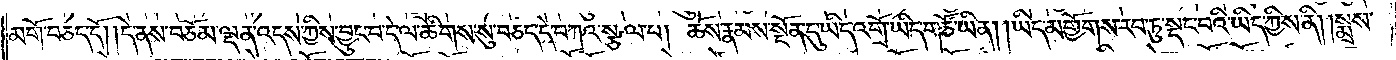མགོ་བཅད་དོ། །དེ་ནས་བཅོམ་ལྡན་འདས་ཀྱིས་བྱུང་བ་དེ་ལ་ཚིགས་སུ་བཅད་དེ་བཀའ་སྩལ་པ། ཆོས་རྣམས་སྔོན་དུ་ཡིད་འགྲོ་ཡིད་གཙོ་ཡིན། །ཡིད་མགྱོགས་རབ་ཏུ་སྡང་བའི་ཡིད་ཀྱིས་ནི། །སྨྲས་
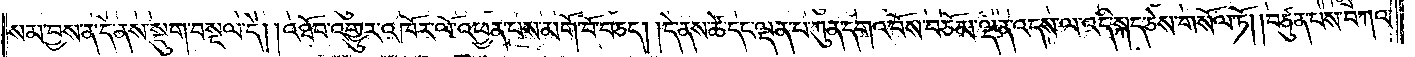སམ་བྱས་ན་དེ་ནས་སྡུག་བསྔལ་དེ། །འཐོབ་འགྱུར་འཁོར་ལོ་འཕྱན་པས་མགོ་བོ་བཅད། །དེ་ནས་ཚེ་དང་ལྡན་པ་ཀུན་དགའ་བོས་བཅོམ་ལྡན་འདས་ལ་འདི་སྐད་ཅེས་གསོལ་ཏོ། །བཙུན་པས་བཀའ་
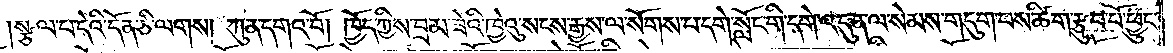།སྩལ་པ་དེའི་དོན་ཅི་ལགས། ཀུན་དགའ་བོ། ཁྱོད་ཀྱིས་བྲམ་ཟེའི་ཁྱེའུ་སངས་རྒྱས་ལ་སོགས་པ་དགེ་སློང་གི་དགེ་འདུན་ལ་སེམས་གདུག་པས་ཚིག་རྩུབ་པོ་ཕྱུང་
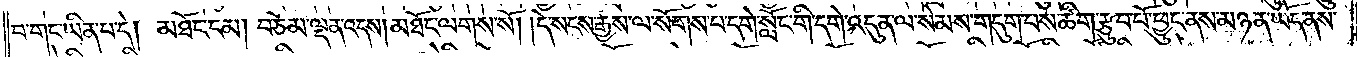བ་གང་ཡིན་པ་དེ། མཐོང་ངམ། བཅོམ་ལྡན་འདས། མཐོང་ལགས་སོ། །དེ་སངས་རྒྱས་ལ་སོགས་པ་དགེ་སློང་གི་དགེ་འདུན་ལ་སེམས་གདུག་པས་ཚིག་རྩུབ་པོ་ཕྱུང་ནས་མཉན་ཡོད་ནས་
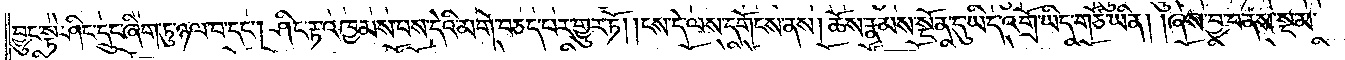བྱུང་སྟེ་ཤིང་དྲུང་ཞིག་ཏུ་ཉལ་བ་དང༌། ཤིང་རྟ་འཁྱམས་པས་དེའི་མགོ་བཅད་པར་གྱུར་ཏོ། །ངས་དེ་ལས་དགོངས་ནས། ཆོས་རྣམས་སྔོན་དུ་ཡིད་འགྲོ་ཡིད་གཙོ་ཡིན། །ཞེས་བྱ་བ་ནས་སྔ་མ་
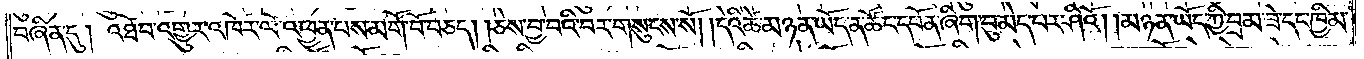བཞིན་དུ། འཐོབ་འགྱུར་འཁོར་ལོ་འཕྱན་པས་མགོ་བོ་བཅད། །ཅེས་བྱ་བའི་བར་གསུངས་སོ། །དེའི་ཚེ་མཉན་ཡོད་ན་ཚོང་དཔོན་ཞིག་བུ་མེད་པར་ཤིའོ། །མཉན་ཡོད་ཀྱི་བྲམ་ཟེ་དང་ཁྱིམ་
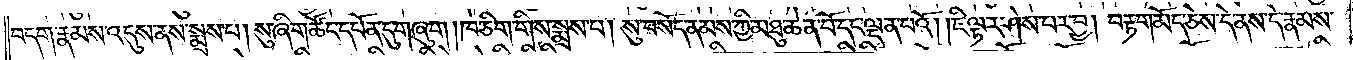བདག་རྣམས་འདུས་ནས་སྨྲས་པ། སུ་ཞིག་ཚོང་དཔོན་དུ་གཞུག །ཁ་ཅིག་གིས་སྨྲས་པ། སུ་བསོད་ནམས་ཀྱི་མཐུ་ཆེན་པོ་དང་ལྡན་པའོ། །ཇི་ལྟར་ཤེས་པར་བྱ། བརྟག་མོད་ཅེས་དེ་ནས་དེ་རྣམས་
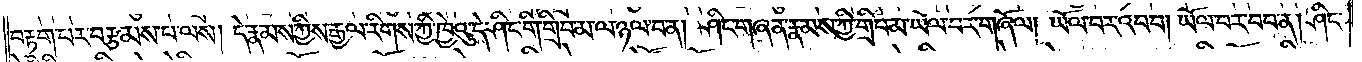བརྟག་པར་བརྩམས་པ་ལས། དེ་རྣམས་ཀྱིས་རྒྱལ་རིགས་ཀྱི་ཁྱེའུ་དེ་ཤིང་གི་གྲིབ་མ་ལ་ཉལ་བ་ན། ཤིང་གཞན་རྣམས་ཀྱི་གྲིབ་མ་ཡོལ་བར་གཞོལ། ཡོལ་བར་འབབ། ཡོལ་བར་བབ་ན། ཤིང་
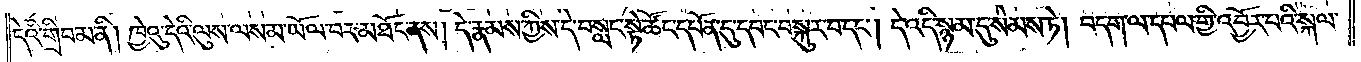དེའི་གྲིབ་མ་ནི། ཁྱེའུ་དེའི་ལུས་ལས་མ་ཡོལ་བར་མཐོང་ནས། དེ་རྣམས་ཀྱིས་དེ་བསླང་སྟེ་ཚོང་དཔོན་དུ་དབང་བསྐུར་བ་དང༌། དེ་འདི་སྙམ་དུ་སེམས་ཏེ། བདག་ལ་དཔལ་གྱི་འབྱོར་བའི་སྐལ་
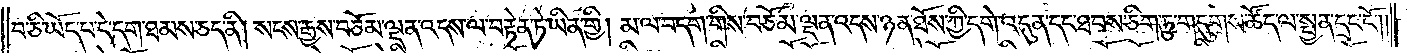བ་ཅི་ཡོད་པ་དེ་དག་ཐམས་ཅད་ནི། སངས་རྒྱས་བཅོམ་ལྡན་འདས་ལ་བརྟེན་ཏེ་ཡིན་གྱི། མ་ལ་བདག་གིས་བཅོམ་ལྡན་འདས་ཉན་ཐོས་ཀྱི་དགེ་འདུན་དང་ཐབས་ཅིག་ཏུ་གདུགས་ཚོད་ལ་སྤྱན་དྲང་ངོ༌། །
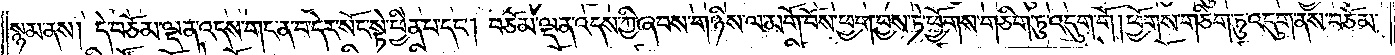སྙམ་ནས། དེ་བཅོམ་ལྡན་འདས་གང་ན་བ་དེར་སོང་སྟེ་ཕྱིན་པ་དང༌། བཅོམ་ལྡན་འདས་ཀྱི་ཞབས་གཉིས་ལ་མགོ་བོས་ཕྱག་བྱས་ཏེ་ཕྱོགས་གཅིག་ཏུ་འདུག་གོ །ཕྱོགས་གཅིག་ཏུ་འདུག་ནས་བཅོམ་
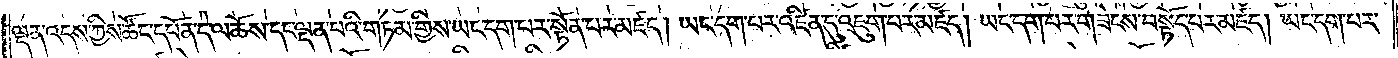ལྡན་འདས་ཀྱིས་ཚོང་དཔོན་དེ་ལ་ཆོས་དང་ལྡན་པའི་གཏམ་གྱིས་ཡང་དག་པར་སྟོན་པར་མཛད། ཡང་དག་པར་འཛིན་དུ་འཇུག་པར་མཛད། ཡང་དག་པར་གཟེངས་བསྟོད་པར་མཛད། ཡང་དག་པར་
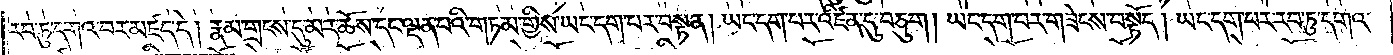རབ་ཏུ་དགའ་བར་མཛད་དེ། རྣམ་གྲངས་དུ་མར་ཆོས་དང་ལྡན་པའི་གཏམ་གྱིས་ཡང་དག་པར་བསྟན། ཡང་དག་པར་འཛིན་དུ་བཅུག །ཡང་དག་པར་གཟེངས་བསྟོད། ཡང་དག་པར་རབ་ཏུ་དགའ་
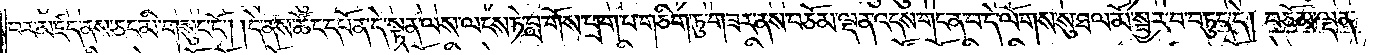བར་མཛད་ནས་ཅང་མི་གསུང་ངོ༌། །དེ་ནས་ཚོང་དཔོན་དེ་སྟན་ལས་ལངས་ཏེ་བླ་གོས་ཕྲག་པ་གཅིག་ཏུ་གཟར་ནས་བཅོམ་ལྡན་འདས་གང་ན་བ་དེ་ལོགས་སུ་ཐལ་མོ་སྦྱར་བ་བཏུད་དེ། བཅོམ་ལྡན་
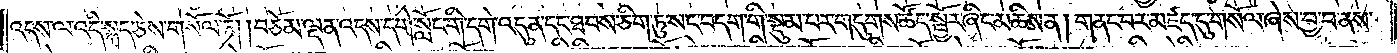འདས་ལ་འདི་སྐད་ཅེས་གསོལ་ཏོ། །བཅོམ་ལྡན་འདས་དགེ་སློང་གི་དགེ་འདུན་དང་ཐབས་ཅིག་ཏུ་སང་བདག་གི་སྡུམ་པར་གདུགས་ཚོད་སྦྱོར་ཞིང་མཆིས་ན། གནང་བར་མཛད་དུ་གསོལ་ཞེས་བྱ་བ་ནས་
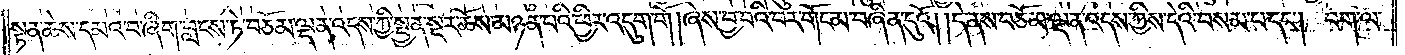སྟན་ཆེས་དམའ་བ་ཞིག་བླངས་ཏེ་བཅོམ་ལྡན་འདས་ཀྱི་སྤྱན་སྔར་ཆོས་མཉན་པའི་ཕྱིར་འདུག་གོ །ཞེས་བྱ་བའི་བར་གོང་མ་བཞིན་དུའོ། །དེ་ནས་བཅོམ་ལྡན་འདས་ཀྱིས་དེའི་བསམ་པ་དང༌། བག་ལ་
